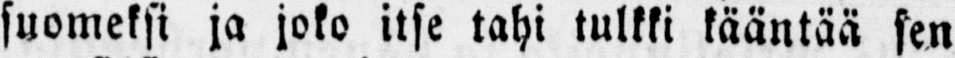suomeksi ja joko itse tahi tulkki kääntää sen
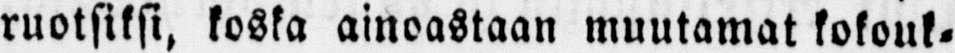ruotsiksi, koska ainoastaan muutamat kokouk-
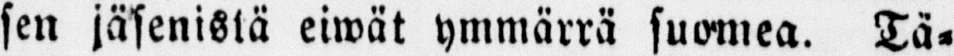sen jäsenistä eiwät ymmärrä suomea. Tä-
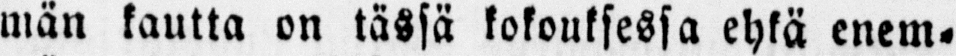män kautta on tässä kokouksessa ehkä enem-
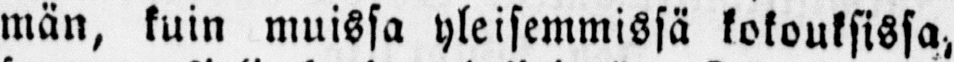män, kuin muissa yleisimmissä kokouksissa,
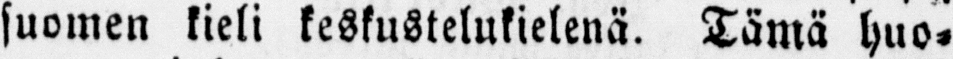suomen kieli keskustelukielenä. Tämä huo-
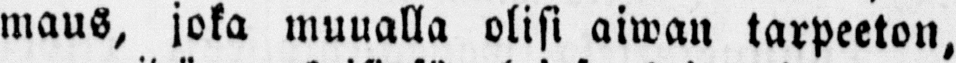maus, joka muualla olisi aiwan tarpeeton,
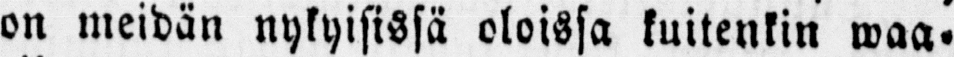on meidän nykyisissä oloissa kuitenkin waa-
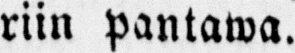riin pantawa.
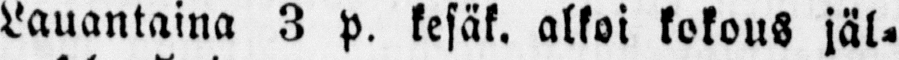lauantaina 3 p. kesäk. alkoi kokous jäl-
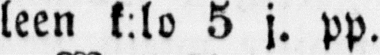leen k:lo 5 j. pp.
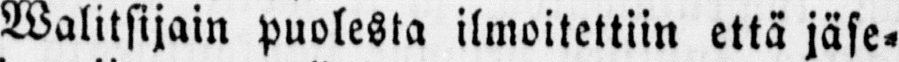Walitsijain puolesta ilmoitettiin että jäse-
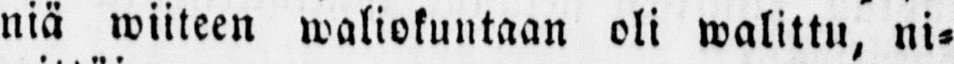niä wiiteen waliokuntaan oli walittu, ni-
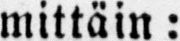mittäin :
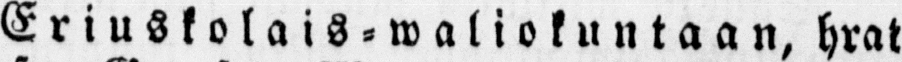Eriuskolais-waliokuntaan, hrat
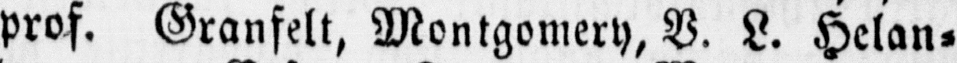prof. Granfelt, Montgomery, V. L. Helan-
